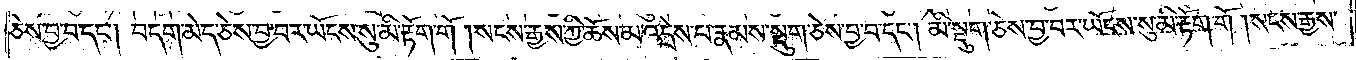ཅེས་བྱ་བ་དང༌། བདག་མེད་ཅེས་བྱ་བར་ཡོངས་སུ་མི་རྟོག་གོ །སངས་རྒྱས་ཀྱི་ཆོས་མ་འདྲེས་པ་རྣམས་སྡུག་ཅེས་བྱ་བ་དང༌།མི་སྡུག་ཅེས་བྱ་བར་ཡོངས་སུ་མི་རྟོག་གོ །སངས་རྒྱས་
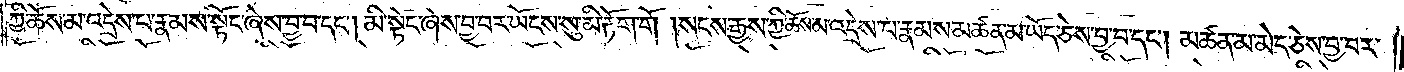ཀྱི་ཆོས་མ་འདྲེས་པ་རྣམས་སྟོང་ཞེས་བྱ་བ་དང༌། མི་སྟོང་ཞེས་བྱ་བར་ཡོངས་སུ་མི་རྟོག་གོ །སངས་རྒྱས་ཀྱི་ཆོས་མ་འདྲེས་པ་རྣམས་མཚན་མ་ཡོད་ཅེས་བྱ་བ་དང༌། མཚན་མ་མེད་ཅེས་བྱ་བར་
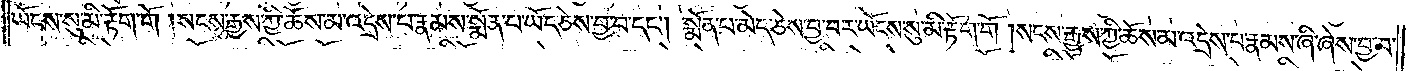ཡོངས་སུ་མི་རྟོག་གོ །སངས་རྒྱས་ཀྱི་ཆོས་མ་འདྲེས་པ་རྣམས་སྨོན་པ་ཡོད་ཅེས་བྱ་བ་དང༌། སྨོན་པ་མེད་ཅེས་བྱ་བར་ཡོངས་སུ་མི་རྟོག་གོ །སངས་རྒྱས་ཀྱི་ཆོས་མ་འདྲེས་པ་རྣམས་ཞི་ཞེས་བྱ་བ་
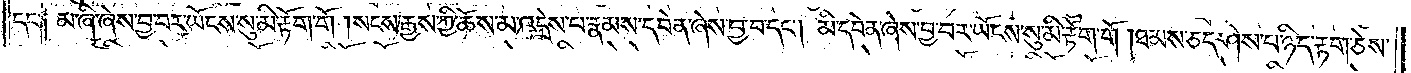དང༌། མ་ཞི་ཞེས་བྱ་བར་ཡོངས་སུ་མི་རྟོག་གོ །སངས་རྒྱས་ཀྱི་ཆོས་མ་འདྲེས་པ་རྣམས་དབེན་ཞེས་བྱ་བ་དང༌། མི་དབེན་ཞེས་བྱ་བར་ཡོངས་སུ་མི་རྟོག་གོ །ཐམས་ཅད་ཤེས་པ་ཉིད་རྟག་ཅེས་
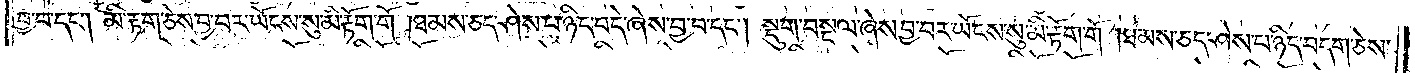བྱ་བ་དང༌། མི་རྟག་ཅེས་བྱ་བར་ཡོངས་སུ་མི་རྟོག་གོ །ཐམས་ཅད་ཤེས་པ་ཉིད་བདེ་ཞེས་བྱ་བ་དང༌། སྡུག་བསྔལ་ཞེས་བྱ་བར་ཡོངས་སུ་མི་རྟོག་གོ །ཐམས་ཅད་ཤེས་པ་ཉིད་བདག་ཅེས་
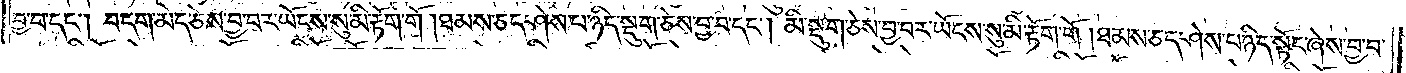བྱ་བ་དང༌། བདག་མེད་ཅེས་བྱ་བར་ཡོངས་སུ་མི་རྟོག་གོ །ཐམས་ཅད་ཤེས་པ་ཉིད་སྡུག་ཅེས་བྱ་བ་དང༌། མི་སྡུག་ཅེས་བྱ་བར་ཡོངས་སུ་མི་རྟོག་གོ །ཐམས་ཅད་ཤེས་པ་ཉིད་སྟོང་ཞེས་བྱ་བ་
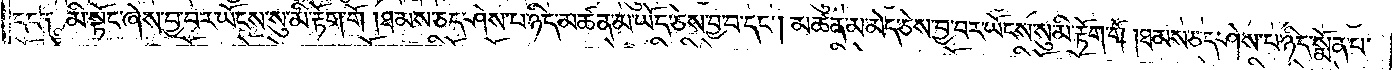དང༌༑ མི་སྟོང་ཞེས་བྱ་བར་ཡོངས་སུ་མི་རྟོག་གོ །ཐམས་ཅད་ཤེས་པ་ཉིད་མཚན་མ་ཡོད་ཅེས་བྱ་བ་དང༌། མཚན་མ་མེད་ཅེས་བྱ་བར་ཡོངས་སུ་མི་རྟོག་གོ །ཐམས་ཅད་ཤེས་པ་ཉིད་སྨོན་པ་
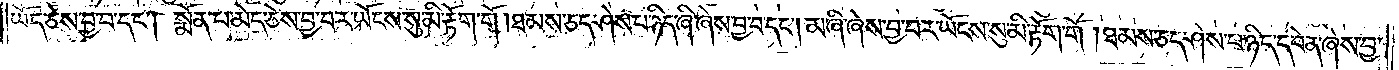ཡོད་ཅེས་བྱ་བ་དང༌། སྨོན་པ་མེད་ཅེས་བྱ་བར་ཡོངས་སུ་མི་རྟོག་གོ །ཐམས་ཅད་ཤེས་པ་ཉིད་ཞི་ཞེས་བྱ་བ་དང༌། མ་ཞི་ཞེས་བྱ་བར་ཡོངས་སུ་མི་རྟོག་གོ །ཐམས་ཅད་ཤེས་པ་ཉིད་དབེན་ཞེས་བྱ་
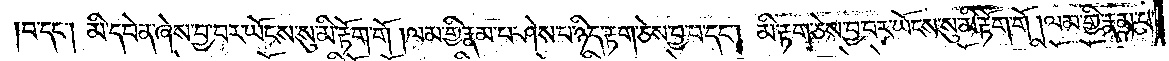བ་དང༌། མི་དབེན་ཞེས་བྱ་བར་ཡོངས་སུ་མི་རྟོག་གོ །ལམ་གྱི་རྣམ་པ་ཤེས་པ་ཉིད་རྟག་ཅེས་བྱ་བ་དང༌། མི་རྟག་ཅེས་བྱ་བར་ཡོངས་སུ་མི་རྟོག་གོ །ལམ་གྱི་རྣམ་པ་
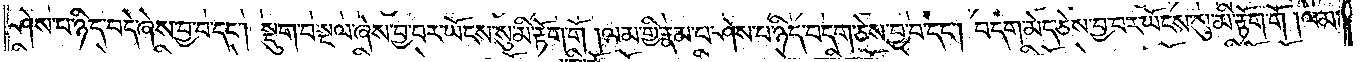ཤེས་པ་ཉིད་བདེ་ཞེས་བྱ་བ་དང༌། སྡུག་བསྔལ་ཞེས་བྱ་བར་ཡོངས་སུ་མི་རྟོག་གོ །ལམ་གྱི་རྣམ་པ་ཤེས་པ་ཉིད་བདག་ཅེས་བྱ་བ་དང༌། བདག་མེད་ཅེས་བྱ་བར་ཡོངས་སུ་མི་རྟོག་གོ །ལམ་
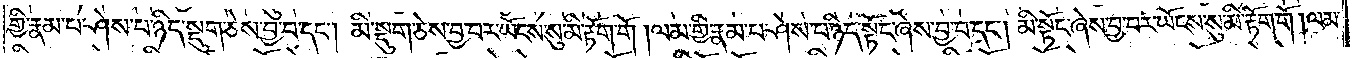གྱི་རྣམ་པ་ཤེས་པ་ཉིད་སྡུག་ཅེས་བྱ་བ་དང༌། མི་སྡུག་ཅེས་བྱ་བར་ཡོངས་སུ་མི་རྟོག་གོ །ལམ་གྱི་རྣམ་པ་ཤེས་པ་ཉིད་སྟོང་ཞེས་བྱ་བ་དང༌། མི་སྟོང་ཞེས་བྱ་བར་ཡོངས་སུ་མི་རྟོག་གོ །ལམ་
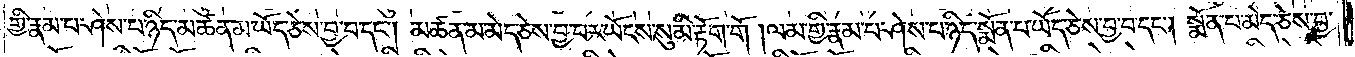གྱི་རྣམ་པ་ཤེས་པ་ཉིད་མཚན་མ་ཡོད་ཅེས་བྱ་བ་དང༌། མཚན་མ་མེད་ཅེས་བྱ་བར་ཡོངས་སུ་མི་རྟོག་གོ །ལམ་གྱི་རྣམ་པ་ཤེས་པ་ཉིད་སྨོན་པ་ཡོད་ཅེས་བྱ་བ་དང༌། སྨོན་པ་མེད་ཅེས་བྱ་
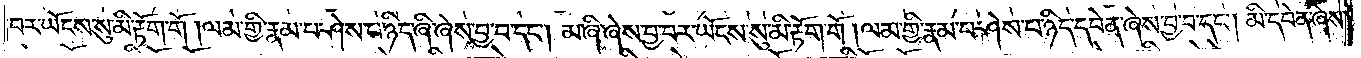བར་ཡོངས་སུ་མི་རྟོག་གོ །ལམ་གྱི་རྣམ་པ་ཤེས་པ་ཉིད་ཞི་ཞེས་བྱ་བ་དང༌། མ་ཞི་ཞེས་བྱ་བར་ཡོངས་སུ་མི་རྟོག་གོ །ལམ་གྱི་རྣམ་པ་ཤེས་པ་ཉིད་དབེན་ཞེས་བྱ་བ་དང༌། མི་དབེན་ཞེས་
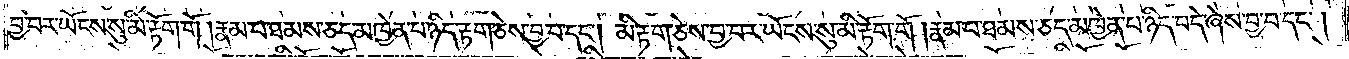བྱ་བར་ཡོངས་སུ་མི་རྟོག་གོ །རྣམ་པ་ཐམས་ཅད་མཁྱེན་པ་ཉིད་རྟག་ཅེས་བྱ་བ་དང༌། མི་རྟག་ཅེས་བྱ་བར་ཡོངས་སུ་མི་རྟོག་གོ །རྣམ་པ་ཐམས་ཅད་མཁྱེན་པ་ཉིད་བདེ་ཞེས་བྱ་བ་དང༌།
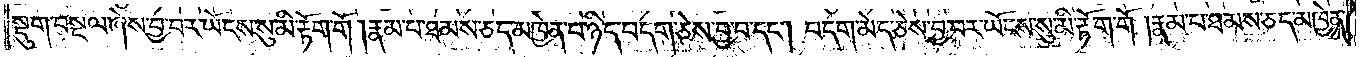སྡུག་བསྔལ་ཞེས་བྱ་བར་ཡོངས་སུ་མི་རྟོག་གོ །རྣམ་པ་ཐམས་ཅད་མཁྱེན་པ་ཉིད་བདག་ཅེས་བྱ་བ་དང༌། བདག་མེད་ཅེས་བྱ་བར་ཡོངས་སུ་མི་རྟོག་གོ །རྣམ་པ་ཐམས་ཅད་མཁྱེན་
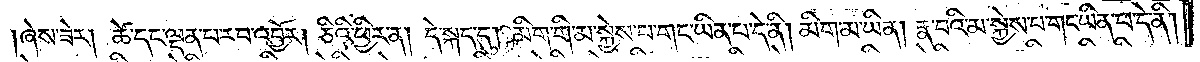ཞེས་ཟེར། ཚེ་དང་ལྡན་པ་རབ་འབྱོར། ཅིའི་ཕྱིར་ན། དེ་སྐད་དུ། མིག་གི་མ་སྐྱེས་པ་གང་ཡིན་པ་དེ་ནི། མིག་མ་ཡིན། རྣ་བའི་མ་སྐྱེས་པ་གང་ཡིན་པ་དེ་ནི།
